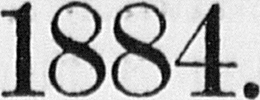1884.
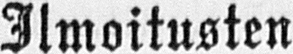Ilmoitusten wastaanotto:
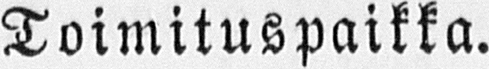Toimituspaikka.
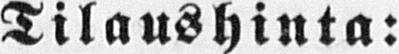Tilaushinta:
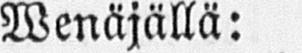Wenäjällä:
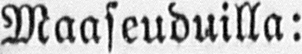Maaseuduilla:
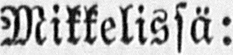Mikkelissä:
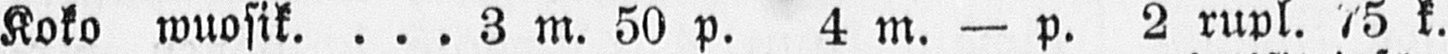Koko wuosik. 3 m. 50 p. 4 m. — p. 2 rupl. 75 k.
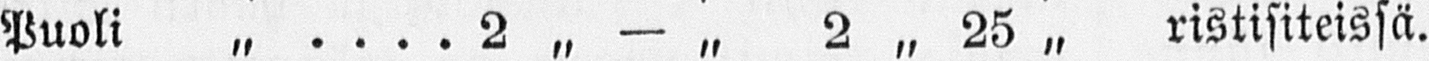Puoli „ 2 „ — „ 2 „ 25 „ ristisiteissä.
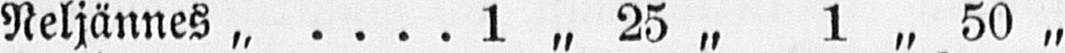Neljännes „ 1 „ 25 „ 1 „ 50 „
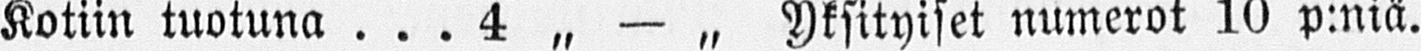Kotiin tuotuna 4 „ — „ Yksityiset numerot 10 p:niä.
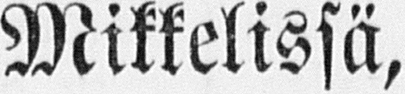Mikkelissä,
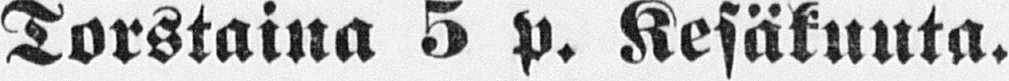Torstaina 5 p. Kesäkuuta.
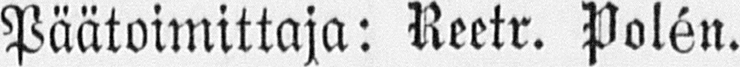Päätoimittaja: Reetr. Polén.
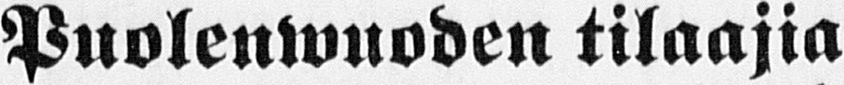Puolenwuoden tilaajia
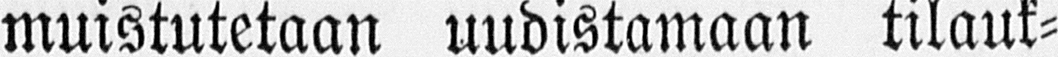muistutetaan uudistamaan tilauk-
